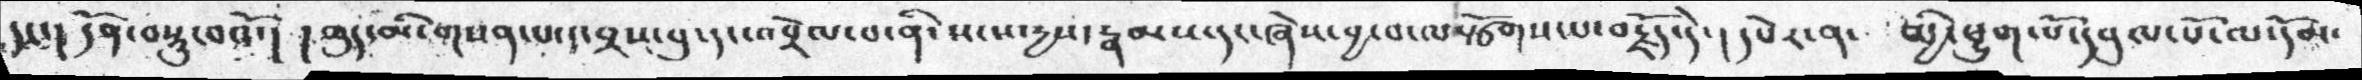དང་། དོན་བསྡུ་པའོ་།  ། ཆུད་མི་གསན་པ་འབྲས་བུ་དང་འབྲེལ་པ་ནི་སངས་རྒྱས་རྣམས་དང་ཞེས་བྱ་བ་ལསྩོགས་པ་བརྗོད་དེ་།  དཔེར་ན་  མྱི་ཕྱུག་པོ་དབུལ་པོ་ལ་དོམ་
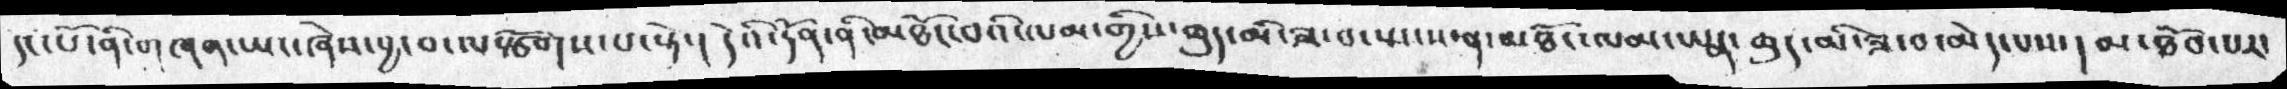དང་པོ་ནི་གཞན་ཡང་ཞེས་བྱ་བ་ལསྩོགས་པ་སྟེ་།  དེའི་དོན་ནི་མཐོང་བའི་ལམ་གྱིས་ཆུད་མི་ཟ་བ་སྤངས་ན་མཐོང་ལམ་ཡན་ ཆུད་མི་ཟ་བ་མེད་པས་། མ་ཐོབ་པར་
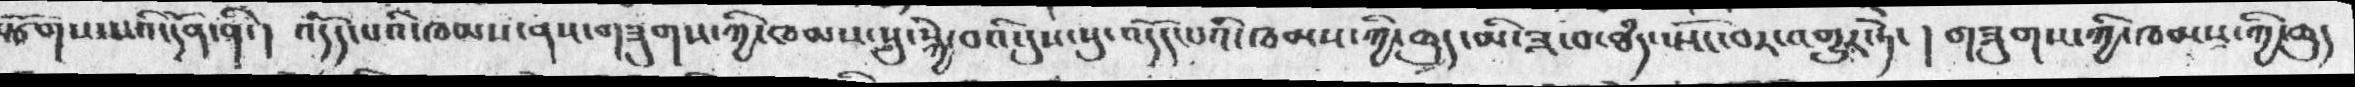ཙོགས་པའི་དོན་ནི་།  འདོད་པའི་ཁམས་ནས་གཟུགས་ཀྱི་ཁམས་སུ་སྐྱེ་བའི་དུས་སུ་འདོད་པའི་ཁམས་ཀྱི་ཆུད་མི་ཟ་བ་ཐདཾ་སྤོང་བར་འགྱུར་ཏེ་  ། གཟུགས་ཀྱི་ཁམས་ཀྱི་ཆུད་
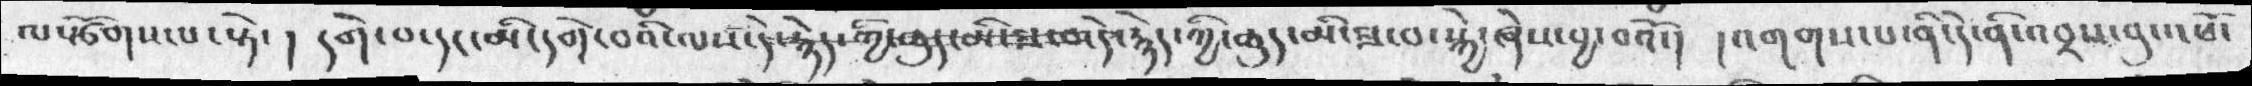ལསྩོགས་པ་སྟེ་   ། དགེ་བ་དང་མི་དགེ་བའི་ལས་དེ་རྙེད་གྱི་ཆུད་མི་ཟ་བ་དེ་རྙེད་ཀྱི་ཆུད་མི་ཟ་བ་སྐྱེ་ཞེས་བྱ་བའོ་།  ། འགགས་པ་ནི་དེ་ནི་འབྲས་བུ་འཕོ་
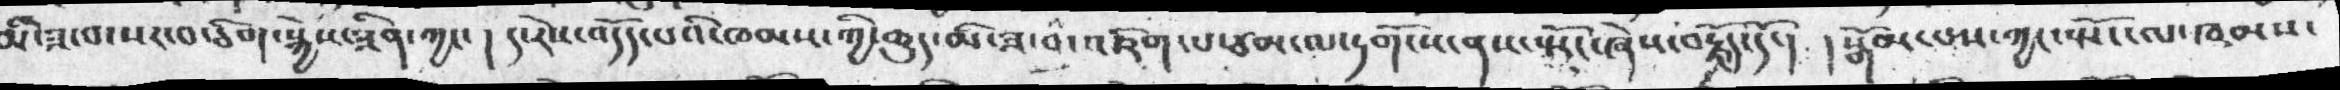མི་ཟ་བ་སར་བ་ཅིག་སྐྱེས་ཟིན་ཀྱང་ ། ད་རེས་འདོད་པའི་ཁམས་ཀྱི་ཆུད་མི་ཟ་བ་འཇིག་པ་ཙམ་ལ་དགོངས་ནས་སྤོང་ཞེས་བརྗོད་དོ་།   ། སྒོམ་པས་ཀྱང་སྤོང་ལ་ཁམས་
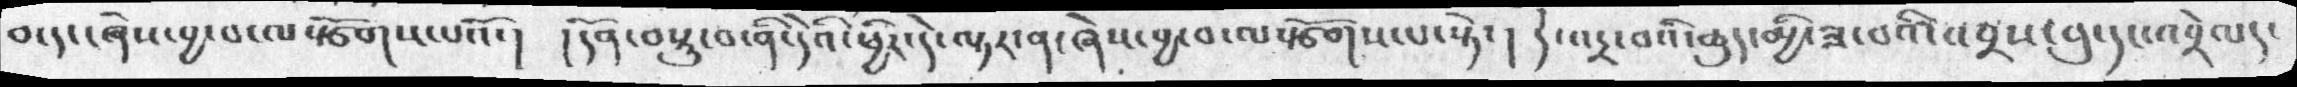བ་དང་ཞེས་བྱ་བ་ལསྩོགས་པའོ་།  ། དོན་བསྡུ་བ་ནི་དེའི་ཕྱིར་དེ་ལྟར་ན་ཞེས་བྱ་བ་ལསྩོགས་པ་སྟེ་།  དེ་འདྲ་བའི་ཆུད་མྱི་ཟ་པའི་འབྲས་བུ་དང་འབྲེལ།་
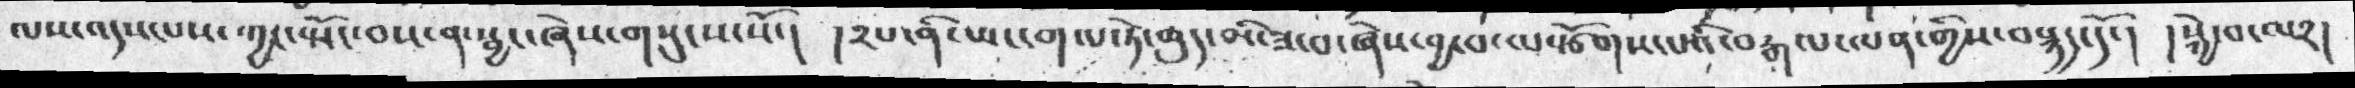ལས་འདས་པས་ཀྱང་སྤོང་བས་ན་སྦྱང་ཞེས་གསུངས་སོ་།  །༢པ་ནི་ཡང་གལ་ཏེ་ཆུད་མི་ཟ་བ་ཞེས་བྱ་བ་ལསྩོགས་པའི་བརྒལ་ལན་གྱིས་བསྙད་དོ་།  །སྐྱེ་བ་ལ༢།
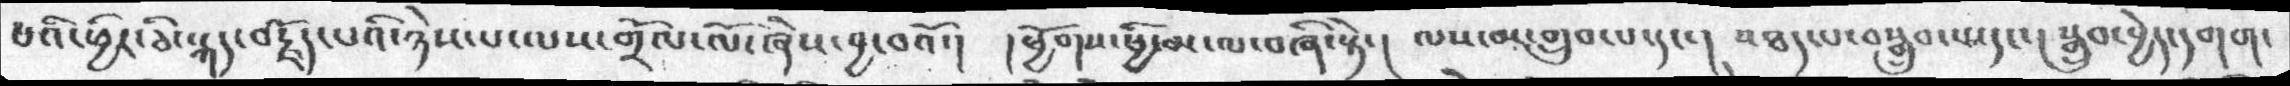པའི་ཕྱིར་ཅི་སྐད་བརྗོད་པའི་ཉེས་པ་ལས་གྲོལ་ལོ་ཞེས་བྱ་བའོ་།  །ཕྱོགས་ཕྱི་མ་ལ་བཞི་སྟེ་།  ལས་མ་གྲུབ་པ་དང་། བཐད་པ་བསྒྲུབ་མདང་། སྒྲུབ་བྱེད་དགག་
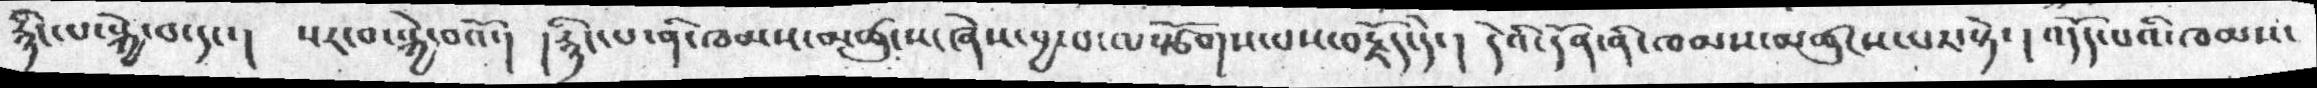རྙིང་པ་སྐྱེ་བ་དང་། སར་བ་སྐྱེ་བའོ་།  །རྙིང་པ་ནི་ཁམས་མཚུངས་ཞེས་བྱ་བ་ལསྩོགས་པས་བརྗོད་དེ་།  དེའི་དོན་ནི་ཁམས་མཚུངས་པར་སྟེ་། འདོད་པའི་ཁམས་
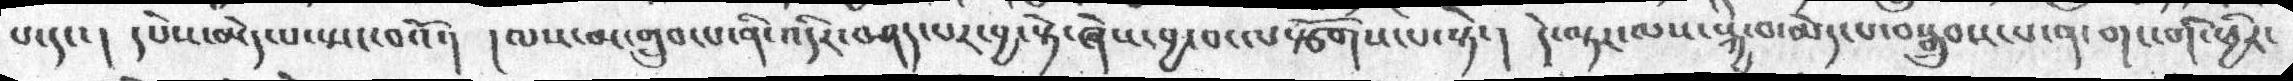པ་དང་། དཔེས་མེད་པས་སྤང་བའོ་།  །ལས་མ་གྲུབ་པ་ནི་འདིར་བཤད་པར་བྱ་སྟེ་ཞེས་བྱ་བ་ལསྩོགས་པ་སྟེ་།  དེ་ལྟར་ལས་སྐྱེ་བ་མེད་པ་བསྒྲུབས་པ་ན་གང་གི་ཕྱིར་
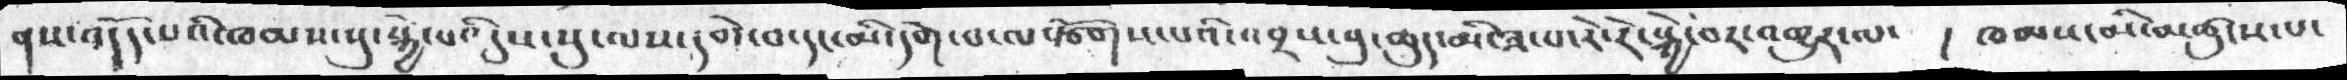ནས་འདོད་པའི་ཁམས་སུ་སྐྱེ་པའི་དུས་སུ་ལས་དགེ་བ་དང་མི་དགེ་པ་ལསྩོགས་པའི་འབྲས་བུ་ཆུད་མི་ཟ་པ་རེ་རེ་སྐྱེ་བར་འགྱུར་ལ་ །  ཁམས་མི་མཚུངས་པ་
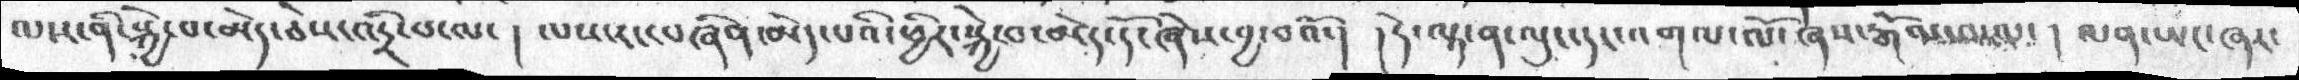ལས་ནི་སྐྱེ་བ་མེད་ཅེས་འདྲི་པ་ལ་།  ལས་རང་བཞིན་མེད་པའི་ཕྱིར་སྐྱེ་བ་མེད་དོ་ཞེས་བྱ་བའོ་།  ། དེ་ལྟ་ན་ལུང་དང་འགལ་ལོ་ཞེས་རྒོལ་བ་ལ་ ། ལན་ཡང་ཞར་
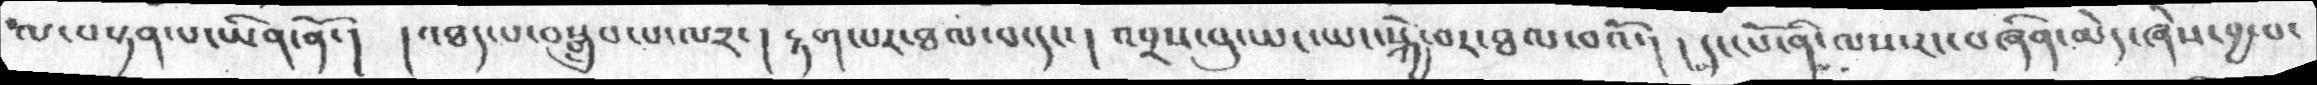ལ་བསྟན་པ་ཡིན་ནོ་།  ། འཐད་པ་བསྒྲུབ་པ་ལ༢་། རྟག་པར་ཐལ་བ་དང་། འབྲས་བུ་ཡང་ཡང་སྐྱེ་བར་ཐལ་བའོ་།  ། དང་པོ་ནི་ལས་རང་བཞིན་མེད་ཞེས་བྱ་བ་
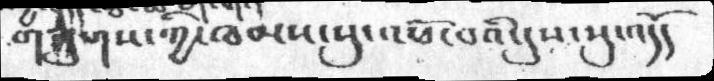གཟུགས་ཀྱི་ཁམས་སུ་འཕོ་བའི་དུས་སུ་འདོད
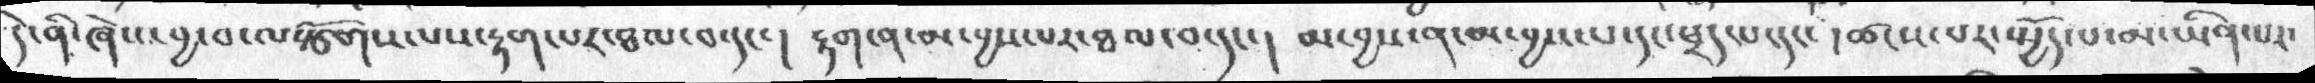དེ་ནི་ཞེས་བྱ་བ་ལསྩོགས་པས་རྟག་པར་ཐལ་བ་དང་།  རྟག་ན་མ་བྱས་པར་ཐལ་བ་དང་།  མ་བྱས་ན་མ་བྱས་པ་དང་ཕྲད་པ་དང་། ཚངས་པར་སྤྱོད་པ་མ་ཡིན་པར་
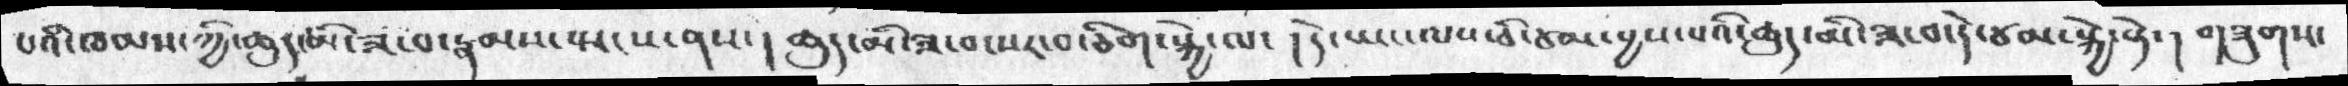པའི་ཁམས་ཀྱི་ཆུད་མི་ཟ་བ་རྣམས་སྤངས་ནས་། ཆུད་མི་ཟ་བ་སར་བ་ཅིག་སྐྱེ་ལ་ ། དེ་ཡང་ལས་ཅི་ཙམ་བྱས་པའི་ཆུད་མི་ཟ་བ་དེ་ཙམ་སྐྱེ་སྟེ་།  གཟུགས་
